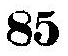85
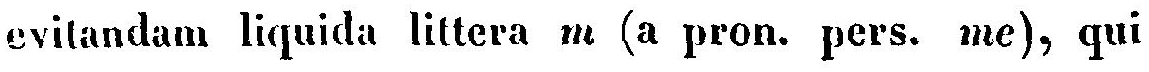evitandam liquida littera m (a pron. pers. me), qui
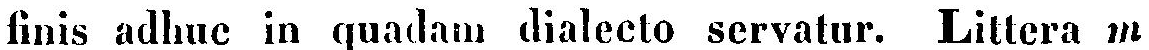finis adhuc in quadam dialecto servatur. Littera m
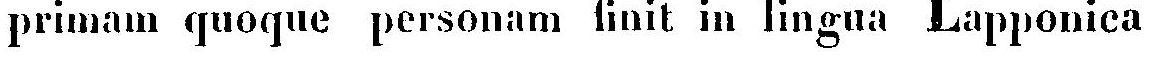primam quoque personam finit in lingua Lapponica
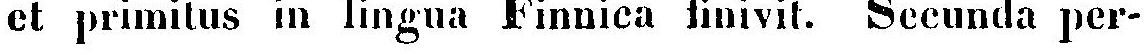et primitus in lingua Finnica finivit. Secunda per-
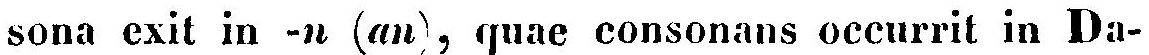sona exit in -n (an), quae consonans occurrit in Da-
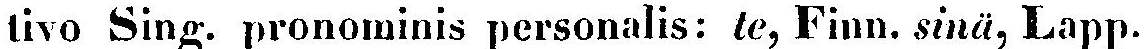tivo Sing. pronominis personalis: te, Finn. sinä, Lapp.
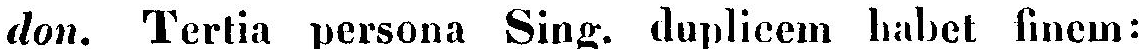don. Tertia persona Sing. duplicem habet finem:
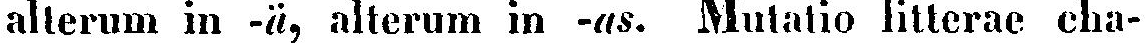alterum in -ä, alterum in -as. Mutatio litterae cha-
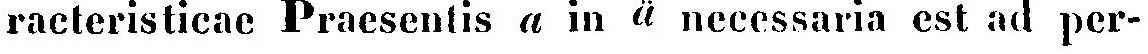racteristicae Praesentis a in ä necessaria est ad per-
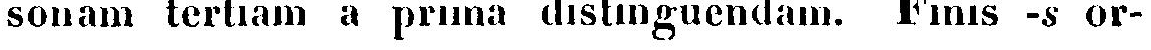sonam tertiam a prima distinguendam. Finis -s or-
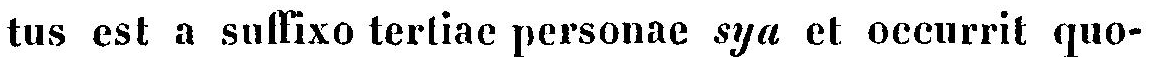tus est a suffixo tertiae personae sya et occurrit quo-
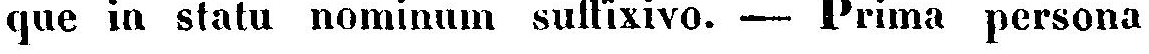que in statu nominum suffixivo. — Prima persona
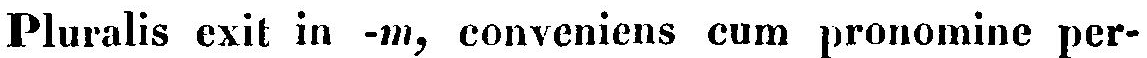Pluralis exit in -m, conveniens cum pronomine per-
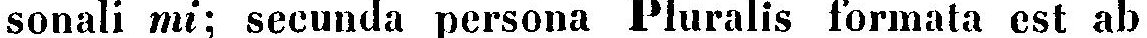sonali mi; secunda persona Pluralis formata est ab
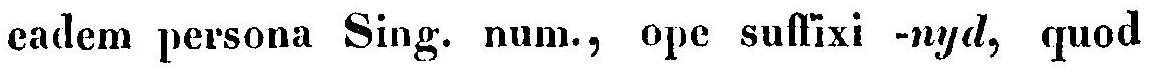cadem persona Sing. num., ope suffixi -nyd, quod
